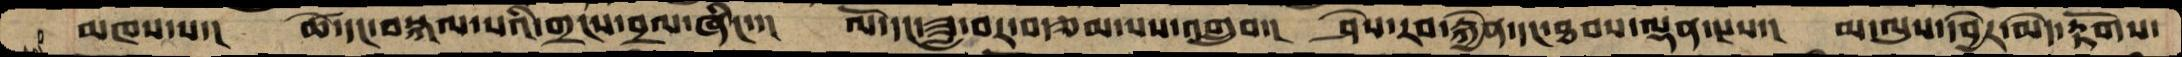མཁས་པ་།  ཚེ་དང་བསྐལ་པའི་གྲངས་བྲལ་ཞིང་་།  ལོ་དང་ཟླ་བར་བརྩམ་པས་འགྲུབ་།  ཤེས་རབ་རྐྱེན་དང་ཐབས་ལྡན་པས་།  མ་ལུས་དབྱེར་མེད་རྟོགས་
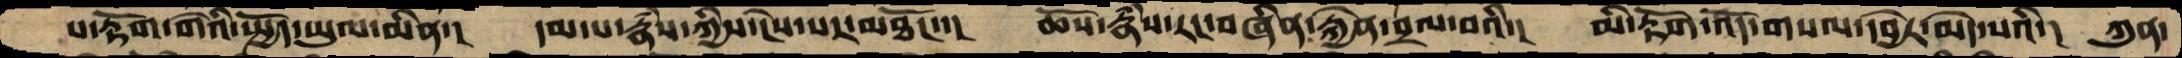པ་རྟོག་གེའི་སྤྱོད་ཡུལ་མིན་།  དམ་པ་རྣཾས་ཀྱིས་ངེས་པར་མཐོང་་།  ཆོས་རྣཾས་རང་བཞིན་རྐྱེན་བྲལ་བའི་།  མི་རྟོག་འོད་གསལ་དབྱེར་མེད་པའི་།  ཀུན་
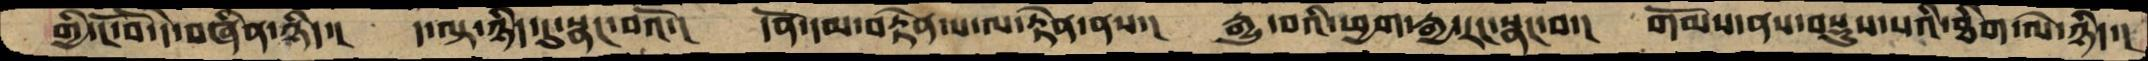གྱི་ངོ་བོ་དེ་བཞིན་ཉིད་།  ད་ལྟ་ཉིད་དུ་སྣང་བའོ་།  དོན་དམ་བརྟེན་པ་ལ་རྟེན་ནས་།  རྒྱུ་བའི་ཕྱག་རྒྱ་རང་སྣང་བ་།  གོམས་ནས་བསྡུས་པའི་ཐིག་ལེ་ཉིད་།
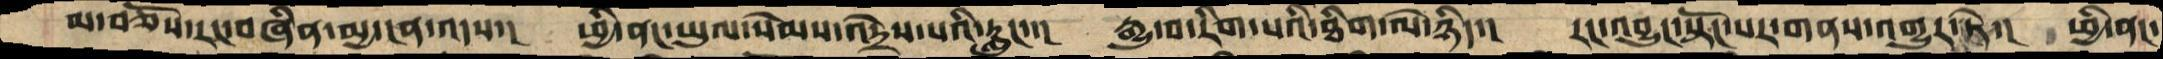མ་བཅོས་རང་བཞིན་མྱ་ངན་འདས་།  ཕྱི་ནང་ཡུལ་སེམས་འདྲེས་པའི་རླུང་་།  རྒྱུ་བ་རིག་པའི་ཐིག་ལེ་ཉིད་།  རང་འབྱུང་སྟོང་པར་གནས་འགྱུར་ཏེ་།  ཕྱི་ནང་
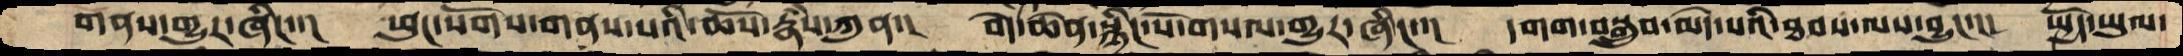གནས་གྱུར་ཞིང་་།  ཕུང་སོགས་གནས་པའི་ཆོས་རྣཾས་ཀུན་།  བདེ་ཆེན་སྙིང་པོ་གསལ་གྱུར་ཞིང་་།  དགག་བསྒྲུབ་མེད་པའི་ཐབས་ལས་བྱུང་་།  སྤྱོད་ཡུལ་
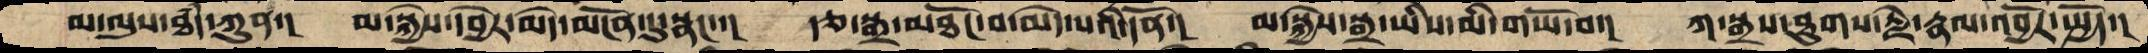མ་ལུས་ཐཾད་ཀུན་།  མ་སྐྱེས་དབྱེར་མེད་མངོན་དུ་སྣང་་།  རྩ་སྒྲ་མཐོང་བ་མེད་པའི་དོན་།  མ་སྐྱེས་སྒྲ་ཡིས་མི་གཡོ་བ་།  ཀ་སྒྲས་ཐུགས་རྗེ་རྣལ་འབྱོར་སྤྱོད་།
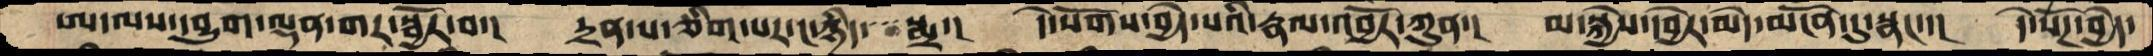ཨ་ལས་དབྱུག་ལྡན་གར་སྦྱོར་བ་།  དྲན་པ་ཅིག་པར་ང་ཉིད་་་སྨྲ་།   དེ་སོགས་བྱེད་པའི་རྣལ་འབྱོར་ཀུན་།  མ་སྐྱེས་དབྱེར་མེད་མངོན་དུ་སྣང་་།  དེ་སོཌ་བྱེད་
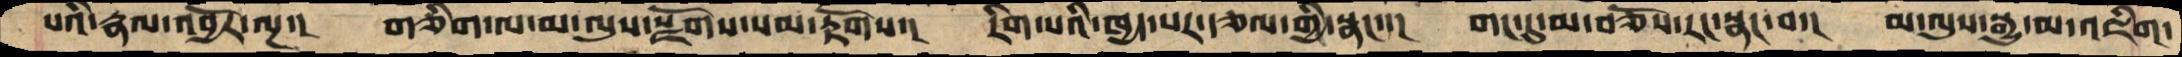པའི་རྣལ་འབྱོར་ལྔ་།  གཅིག་ལ་མ་ལུས་སྫོགས་སམ་རྟོགས་།  རིག་པའི་ཁྱད་པར་རྩལ་གྱི་སྣང་་།  གང་དུ་མ་བཅོས་རང་སྣང་བ་།  མ་ལུས་སྒྱུ་མ་འཇིག་
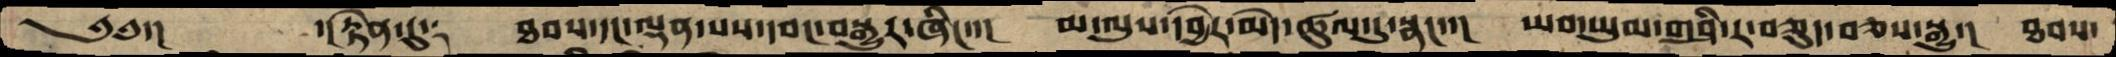༄༅་།       ་།རྟེན་དུ༑  ཐབས་དང་ལྡན་པས་དབང་བསྒྱུར་ཞིང་་།  མ་ལུས་དབྱེར་མེད་ཚུལ་དུ་སྣང་་།  ཡབ་ཡུམ་གཤི་ར་བཅུད་བཅས་སྒྱུ་།  ཐབས་
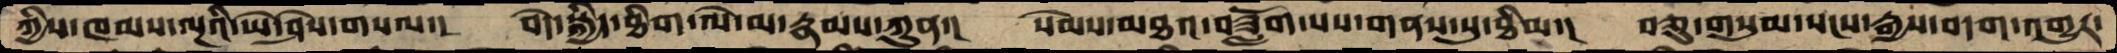ཀྱིས་ཁམས་ལྔའི་ཡེ་ཤེས་གསལ་།  བདེ་སྐྱིད་ཐིག་ལེ་མ་རྣམས་ཀུན་།  སེམས་མཐའ་བཟློག་པས་གནས་སུ་ཐིམ་།  བཅུ་གསུམ་སངས་རྒྱས་བདག་འགྱུར་
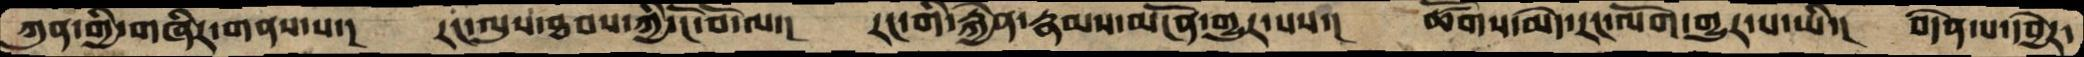ཀུན་གྱི་གཞིར་གནས་པ་།  རང་ལུས་ཐབས་ཀྱི་ངོ་བོ་ལ་།  རང་གི་རྐྱེན་རྣམས་མངོན་གྱུར་པས་།  ཚོགས་མེད་རང་ལོག་གྱུར་པ་ཡི་།  བདེན་པ་དབྱེར་
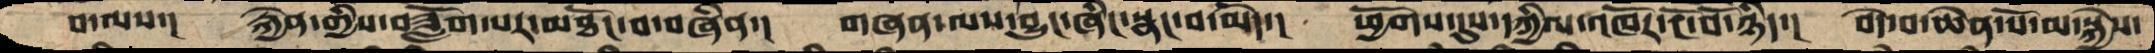བ་ལས་།  རྐྱེན་གྱིས་བཟློག་པར་མཐོང་བ་བཞིན་།  གཞན་ལས་བྱུང་ཞིང་སྣང་བ་མེད་།  ཕྱོགས་དུས་དཀྱིལ་འཁོར་ངོ་བོ་ཉིད་།  བདེ་བ་ཆེན་པོ་མ་སྐྱེས་
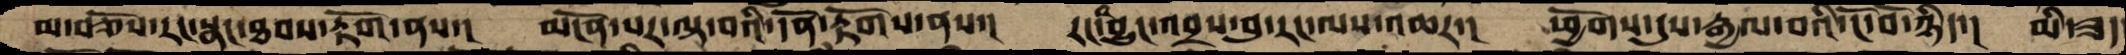མ་བཅོས་རང་སྣང་ཐབས་རྟོག་ནས་།  མངོན་པར་ལྟ་བའི་དོན་རྟོགས་ནས་།  རང་འབྱུང་འབྲས་བུ་རང་ལས་འཆར་།  ཕྱོགས་དུས་རྒྱལ་བའི་ངོ་བོ་ཉིད་།  མི་ཟད་
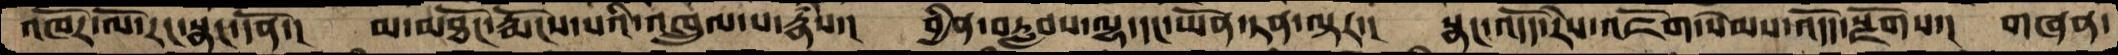འཁོར་ལོ་རང་སྣང་དོན་།  མ་མཐོང་རྨོངས་པའི་འཁྲུལ་པ་རྣཾས་།  བྱིན་བརླབས་ལྷ་དང་ཡོན་ཏན་ལྟར་།  སྣང་འདོད་རེས་འཇོག་སེམས་འདོད་སྫོགས་།  གཞན་
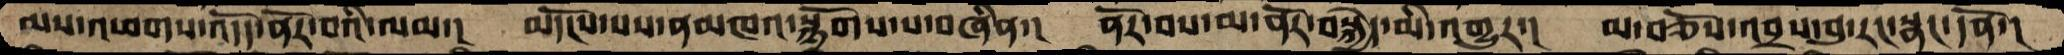ལས་འཕགས་འདོད་ནོར་བའི་ལམ་།  མདོངས་པས་ནམཁའ་སྙོགས་པ་བཞིན་།  ནོར་བས་མ་ནོར་བསྐྱེད་མི་འགྱུར་།  མ་བཅོས་འབྲས་བུ་རང་སྣང་དོན་།
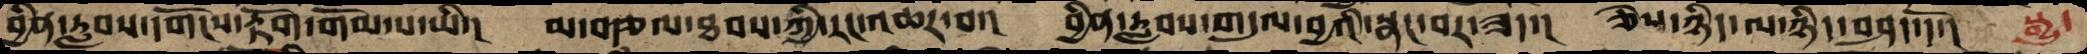བྱིན་རླབས་དགོངས་རྟོག་གོམ་པ་ཡི་།  མ་བརྩལ་ཐབས་ཀྱི་རང་འཆར་བ་།  བྱིན་རླབས་གདུལ་བྱའི་སྣང་བར་ཟད་།  ཅེས་ཉིད་ལ་ཉིད་བཤད་དོ་།  སྒྱུ་
